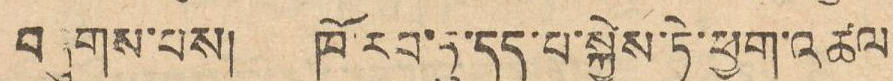བཞུགས་པས། ཁོ་རབ་ཏུ་དད་པ་སྐྱེས་ཏེ་ཕྱག་འཚལ
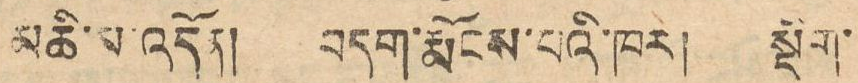མཆི་མ་འདོན། བདག་རྨོངས་པའི་ཁར། སྡིག་
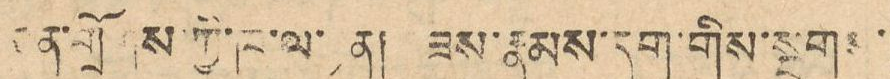ངན་གྲོགས་ཀྱི་ཁ་ལ་ཉན། ཟས་རྣམས་དུག་གིས་སྔགས་
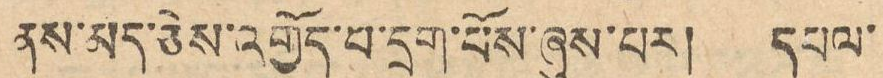ནས་མེད་ཅེས་འགྱོད་པ་དྲག་པོས་ཞུས་པར། དཔལ་
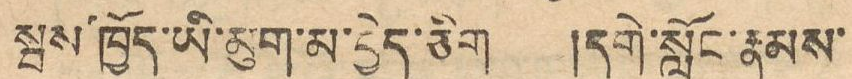སྦས་ཁྱོད་ཡི་མུག་མ་བྱེད་ཅིག །དགེ་སློང་རྣམས་
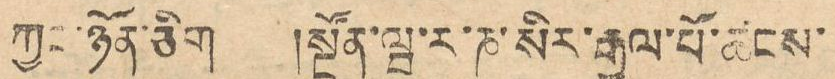ཀྱང་ཉོན་ཅིག །སྔོན་ཝ་ར་ཎ་སིར་རྒྱལ་པོ་ཚངས་
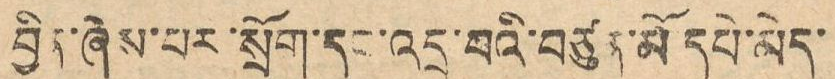བྱིན་ཞེས་པར་སྲོག་དང་འདྲ་བའི་བཙུན་མོ་དཔེ་མེད་
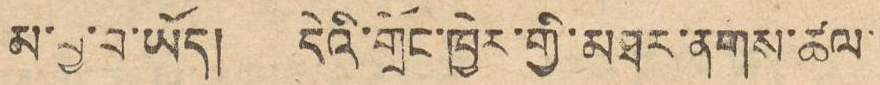མ་བྱ་བ་ཡོད། དེའི་གྲོང་ཁྱེར་གྱི་མཐར་ནགས་ཚལ་
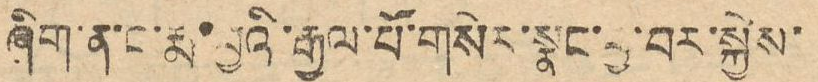ཞིག་ན་ང་རྨ་བྱའི་རྒྱལ་པོ་གསེར་སྣང་བྱ་བར་སྐྱེས་
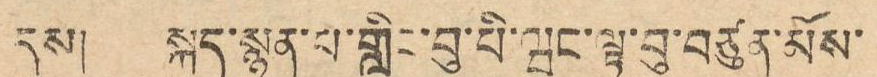དུས། སྐད་སྙན་པ་གླིང་བུ་པི་ཝང་ལྟ་བུ་བཙུན་མོས་
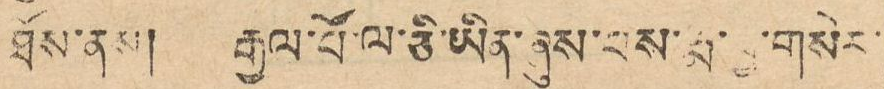ཐོས་ནས། རྒྱལ་པོ་ལ་ཅི་ཡིན་ཞུས་པས་རྨ་བྱ་གསེར་
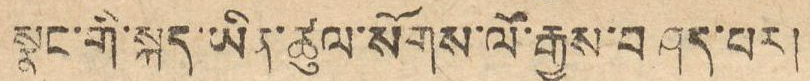སྣང་གི་སྐད་ཡིན་ཚུལ་སོགས་ལོ་རྒྱུས་བཤད་པར།
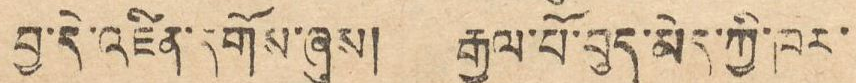བྱ་དེ་འཛིན་དགོས་ཞུས། རྒྱལ་པོ་བུད་མེད་ཀྱི་ཁོར་
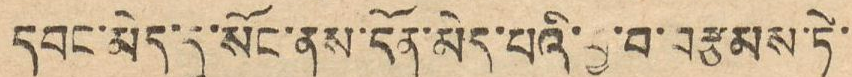དབང་མེད་དུ་སོང་ནས་དོན་མེད་པའི་བྱ་བ་བརྩམས་ཏེ་
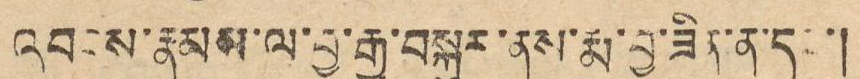འབངས་རྣམས་ལ་བྱ་རྒྱ་བསྐུར་ནས་རྨ་བྱ་ཟིན་ན་དང་།
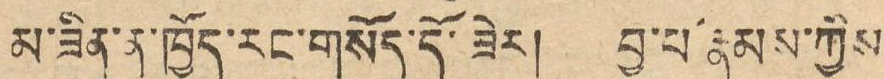མ་ཟིན་ན་ཁྱོད་རང་གསོད་དོ་ཟེར། བྱ་པ་རྣམས་ཀྱིས
